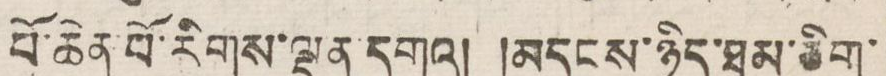པོ་ཆེན་པོ་རིགས་ལྡན དགའ། །མདངས་ཉིད་ཐུམ་ཅིག་
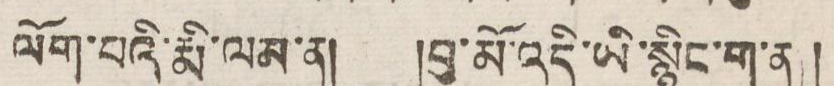ལོག་པའི་རྨི་ལམ་ན། །བུ་མོ་འདི་ཡི་སྙིང་ག་ན །
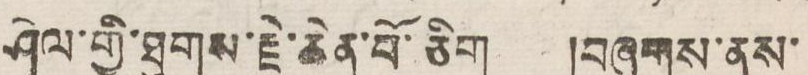ཤེལ་གྱི་ཐུགས་རྗེ་ཆེན་པོ་ཅིག །བཞུགས་ནས་
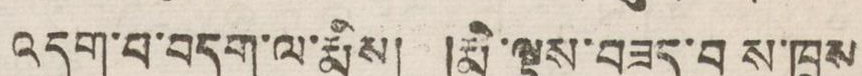འདུག་བ་བདག་ལ་རྨིས། རྨི་ལྟས་བཟད་བས་ཁྲུས
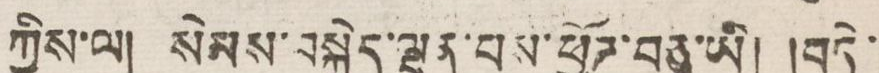ཀྱིས་ལ། སེམས་བསྐྱེད་ལྡན་པས་ཕྱོཊ་བཅུ་ཡི། །བདེ་
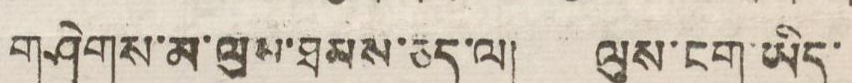གཤེགས་མ་ལུས་ཐམས་ཅད་ལ། ལུས་ངག་ཡིད་
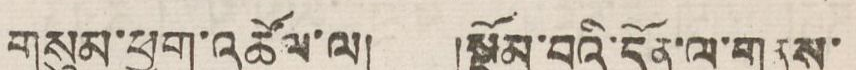གསུམ་ཕྱག་འཚལ་ལ། །སྡོམ་པའི་དོན་ལ་གནས་
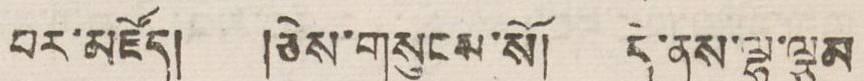བར་མཛོད། །ཅེས་གསུངས་སོ། དེ་ནས་ལྷ་ལྕམ
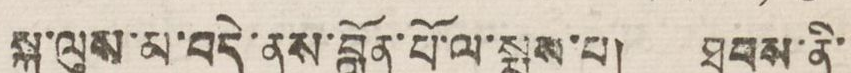སྐུ་ལུས་མ་བདེ་ནས་བློན་པོ་ལ་སྨྲས་པ། ཐབས་ནི་
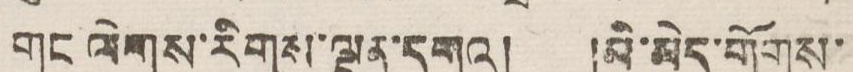གང ལེགས་རིགས་ལྡན་དགའ། །མི་མེད་གྲོགས་
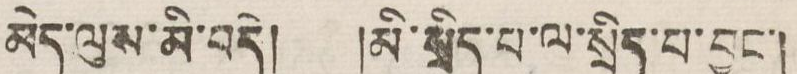མེད་ལུས་མི་བདེ། །མི་སྲིད་པ་ལ་སྲིད་པ་བྱུང་།
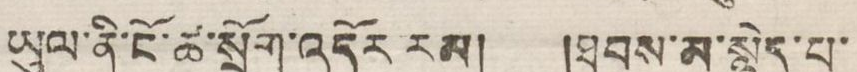ཡུལ་ནི་ངོ་ཚ་སྲོག་འདོར་རམ། །ཐབས་མ་སྙེད་པ་
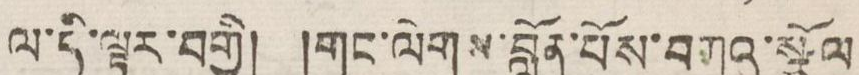ལ་དི་ལྟར་བགྱི། །གང་ལེགས་བློན་པོས་བཀའ་སྩོལ་
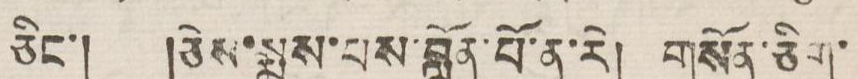ཅིང་། །ཅེས་སྨྲས་པས་བློན་པོ་ན་རེ། གསོན་ཅིག་
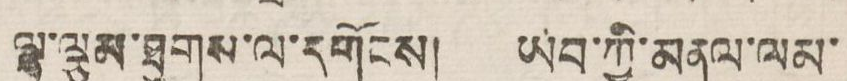ལྷ་ལྕམ་ཐུགས་ལ་དགོངས། ཡབ་ཀྱི་མནལ་ལམ་
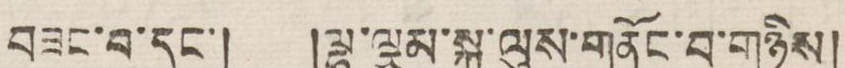བཟང་བ་དང་། །ལྷ་ལྕམ་སྐུ་ལུས་གནོང་བ་གཉིས།
